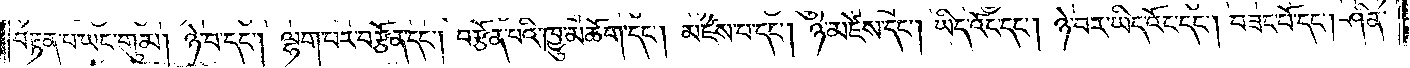བརྟན་པ་ཡང་གུམ། ཉེ་བ་དང༌། ལྷག་པར་བརྩོན་དང༌། བརྩོན་པའི་ཁྱུ་མཆོག་དང༌། མཛེས་པ་དང༌། ཉེ་མཛེས་དང༌། ཡིད་འོང་དང༌། ཉེ་བར་ཡིད་འོང་དང༌། བཟང་པོ་དང༌། ཤིན་
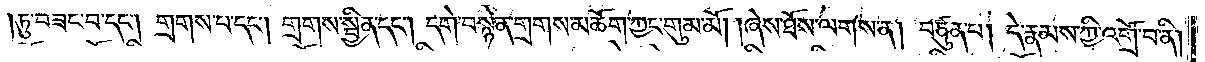ཏུ་བཟང་བ་དང༌། གྲགས་པ་དང༌། གྲགས་སྦྱིན་དང༌། དགེ་བསྙེན་གྲགས་མཆོག་ཀྱང་གུམ་མོ། །ཞེས་ཐོས་ལགས་ན། བཙུན་པ། དེ་རྣམས་ཀྱི་འགྲོ་བ་ནི།
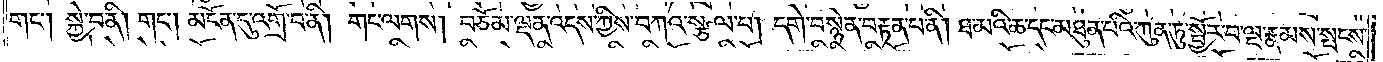གང་། སྐྱེ་བ་ནི། གང༌། མངོན་དུ་འགྲོ་བ་ནི། གང་ལགས། བཅོམ་ལྡན་འདས་ཀྱིས་བཀའ་སྩལ་པ། དགེ་བསྙེན་བརྟན་པ་ནི། ཐ་མའི་ཆ་དང་མཐུན་པའི་ཀུན་ཏུ་སྦྱོར་བ་ལྔ་རྣམས་སྤངས་
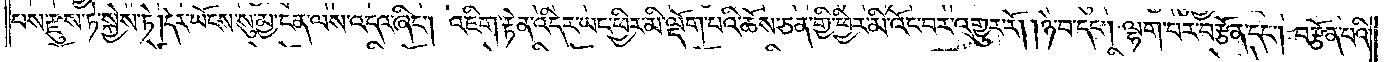པས་རྫུས་ཏེ་སྐྱེས་ཏེ། དེར་ཡོངས་སུ་མྱ་ངན་ལས་འདའ་ཞིང༌། འཇིག་རྟེན་འདིར་ཡང་ཕྱིར་མི་ལྡོག་པའི་ཆོས་ཅན་གྱི་ཕྱིར་མི་འོང་བར་འགྱུར་རོ། །ཉེ་བ་དང༌། ལྷག་པར་བརྩོན་དང༌། བརྩོན་པའི་
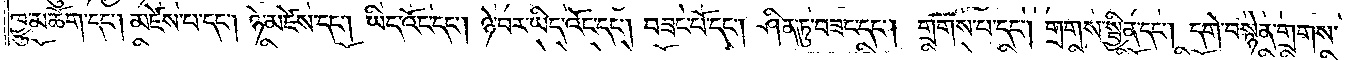ཁྱུ་མཆོག་དང༌། མཛེས་པ་དང༌། ཉེ་མཛེས་དང༌། ཡིད་འོང་དང༌། ཉེ་བར་ཡིད་འོང་དང༌། བཟང་པོ་དང༌། ཤིན་ཏུ་བཟང་དང༌། གྲགས་པ་དང༌། གྲགས་སྦྱིན་དང༌། དགེ་བསྙེན་གྲགས་
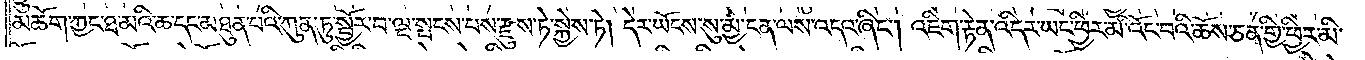མཆོག་ཀྱང་ཐ་མའི་ཆ་དང་མཐུན་པའི་ཀུན་ཏུ་སྦྱོར་བ་ལྔ་སྤངས་པས་རྫུས་ཏེ་སྐྱེས་ཏེ། དེར་ཡོངས་སུ་མྱ་ངན་ལས་འདའ་ཞིང༌། འཇིག་རྟེན་འདིར་ཡང་ཕྱིར་མི་འོང་བའི་ཆོས་ཅན་གྱི་ཕྱིར་མི་
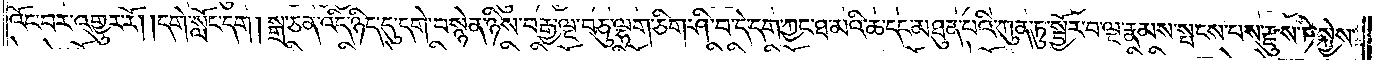འོང་བར་འགྱུར་རོ། །དགེ་སློང་དག །སྒྲ་ཅན་འདི་ཉིད་དུ་དགེ་བསྙེན་ཉིས་བརྒྱ་ལྔ་བཅུ་ལྷག་ཅིག་ཤི་བ་དེ་དག་ཀྱང་ཐ་མའི་ཆ་དང་མཐུན་པའི་ཀུན་ཏུ་སྦྱོར་བ་ལྔ་རྣམས་སྤངས་པས་རྫུས་ཏེ་སྐྱེས་
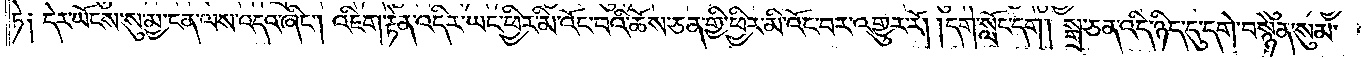ཏེ༑ དེར་ཡོངས་སུ་མྱ་ངན་ལས་འདའ་ཞིང༌། འཇིག་རྟེན་འདིར་ཡང་ཕྱིར་མི་འོང་བའི་ཆོས་ཅན་གྱི་ཕྱིར་མི་འོང་བར་འགྱུར་རོ། །དགེ་སློང་དག །སྒྲ་ཅན་འདི་ཉིད་དུ་དགེ་བསྙེན་སུམ་
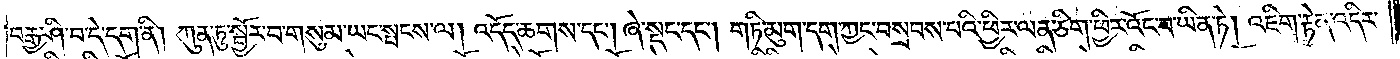བརྒྱ་ཤི་བ་དེ་དག་ནི། ཀུན་ཏུ་སྦྱོར་བ་གསུམ་ཡང་སྤངས་ལ། འདོད་ཆགས་དང༌། ཞེ་སྡང་དང༌། གཏི་མུག་དག་ཀྱང་བསྲབས་པའི་ཕྱིར་ལན་ཅིག་ཕྱིར་འོང་བ་ཡིན་ཏེ། འཇིག་རྟེན་འདིར་
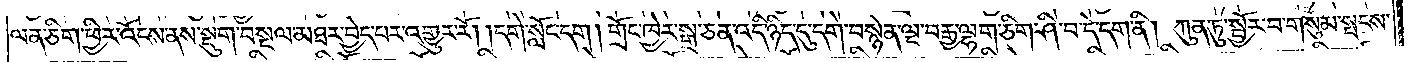ལན་ཅིག་ཕྱིར་འོངས་ནས་སྡུག་བསྔལ་མཐར་བྱེད་པར་འགྱུར་རོ། །དགེ་སློང་དག །གྲོང་ཁྱེར་སྒྲ་ཅན་འདི་ཉིད་དུ་དགེ་བསྙེན་ལྔ་བརྒྱ་ལྷག་ཅིག་ཤི་བ་དེ་དག་ནི། ཀུན་ཏུ་སྦྱོར་བ་གསུམ་སྤངས་
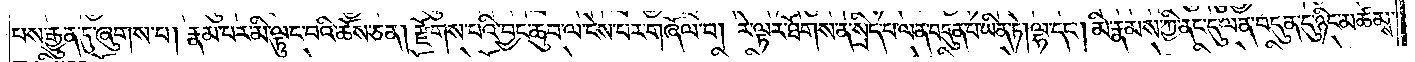པས་རྒྱུན་དུ་ཞུགས་པ། རྣམ་པར་མི་ལྟུང་བའི་ཆོས་ཅན། རྫོགས་པའི་བྱང་ཆུབ་ལ་ངེས་པར་གཞོལ་བ། རེ་ལྟར་ཐོགས་ན་སྲིད་པ་ལན་བདུན་པ་ཡིན་ཏེ།ལྷ་དང༌། མི་རྣམས་ཀྱི་ནང་དུ་ལན་བདུན་དུ་ཉིང་མཚམས་
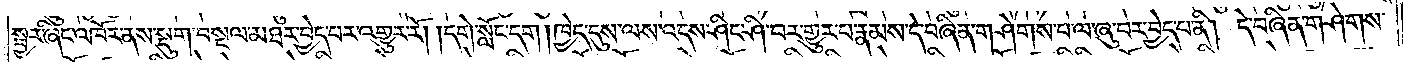སྦྱར་ཞིང་འཁོར་ནས་སྡུག་བསྔལ་མཐར་བྱེད་པར་འགྱུར་རོ། །དགེ་སློང་དག །ཁྱེད་དུས་ལས་འདས་ཤིང་ཤི་བར་གྱུར་པ་རྣམས་དེ་བཞིན་གཤེགས་པ་ལ་ཞུ་བར་བྱེད་པ་ནི། དེ་བཞིན་གཤེགས་
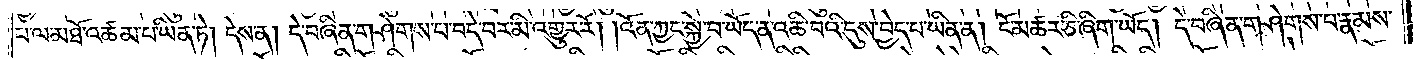པ་ལ་མཐོ་འཚམ་པ་ཡིན་ཏེ། དེས་ན། དེ་བཞིན་གཤེགས་པ་བདེ་བར་མི་འགྱུར་རོ། །འོན་ཀྱང་སྐྱེ་བ་ཡོད་ན་འཆི་བའི་དུས་བྱེད་པ་ཡིན་ཏེ། ངོ་མཚར་ཅི་ཞིག་ཡོད། དེ་བཞིན་གཤེགས་པ་རྣམས་
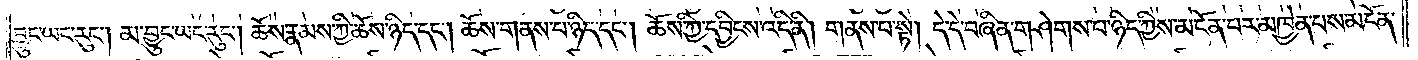བྱུང་ཡང་རུང༌། མ་བྱུང་ཡང་རུང༌། ཆོས་རྣམས་ཀྱི་ཆོས་ཉིད་དང༌། ཆོས་གནས་པ་ཉིད་དང༌། ཆོས་ཀྱི་དབྱིངས་འདི་ནི། གནས་པ་སྟེ། དེ་དེ་བཞིན་གཤེགས་པ་ཉིད་ཀྱིས་མངོན་པར་མཁྱེན་པས་མངོན་
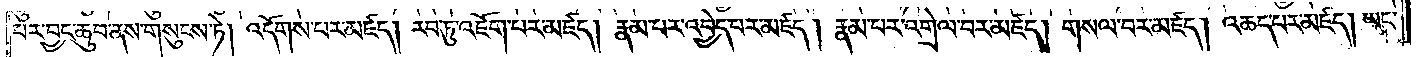པར་བྱང་ཆུབ་ནས་གསུངས་ཏེ། འདོགས་པར་མཛད། རབ་ཏུ་འཇོག་པར་མཛད། རྣམ་པར་འབྱེད་པར་མཛད། རྣམ་པར་འགྲེལ་བར་མཛད། གསལ་བར་མཛད། འཆད་པར་མཛད། ཡང་
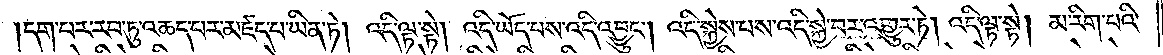།དག་པར་རབ་ཏུ་འཆད་པར་མཛད་པ་ཡིན་ཏེ། འདི་ལྟ་སྟེ། འདི་ཡོད་པས་འདི་འབྱུང༌། འདི་སྐྱེས་པས་འདི་སྐྱེ་བར་འགྱུར་ཏེ། འདི་ལྟ་སྟེ། མ་རིག་པའི་
